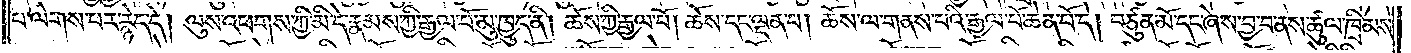པ་ལེགས་པར་རྙེད་དེ། ལུས་འཕགས་ཀྱི་མི་དེ་རྣམས་ཀྱི་རྒྱལ་པོ་མུ་ཁྱུད་ནི། ཆོས་ཀྱི་རྒྱལ་པོ། ཆོས་དང་ལྡན་པ། ཆོས་ལ་གནས་པའི་རྒྱལ་པོ་ཆེན་པོ་དེ། བཙུན་མོ་དང་ཞེས་བྱ་བ་ནས་ཚུལ་ཁྲིམས་
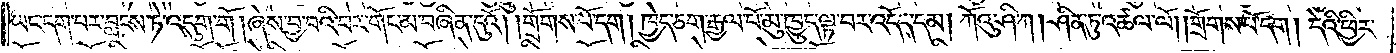ཡང་དག་པར་བླངས་ཏེ་འདུག་གོ །ཞེས་བྱ་བའི་བར་གོང་མ་བཞིན་དུའོ། །གྲོགས་པོ་དག །ཁྱེད་ཅག་རྒྱལ་པོ་མུ་ཁྱུད་ལྟ་བར་འདོད་དམ། ཀོའུ་ཤི་ཀ། ཤིན་ཏུ་འཚལ་ལོ། །གྲོགས་པོ་དག །དེའི་ཕྱིར་
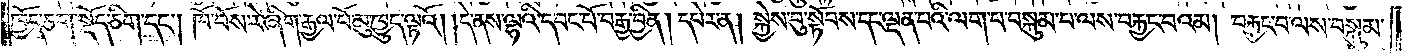ཁྱོད་ཅག་སྡོད་ཅིག་དང༌། ཁོ་བོས་རེ་ཞིག་རྒྱལ་པོ་མུ་ཁྱུད་ལྟའོ། །དེ་ནས་ལྷའི་དབང་པོ་བརྒྱ་བྱིན། དཔེར་ན། སྐྱེས་བུ་སྟོབས་དང་ལྡན་པའི་ལག་པ་བསྐུམ་པ་ལས་བརྐྱང་བའམ། བརྐྱང་བ་ལས་བསྐུམ་
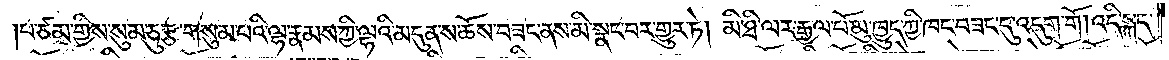།པ་ཙམ་གྱིས་སུམ་ཅུ་རྩ་གསུམ་པའི་ལྷ་རྣམས་ཀྱི་ལྷའི་མདུན་ས་ཆོས་བཟང་ནས་མི་སྣང་བར་གྱུར་ཏེ། མི་ཐི་ལར་རྒྱལ་པོ་མུ་ཁྱུད་ཀྱི་ཁང་བཟང་དུ་འདུག་གོ །འདི་སྐད་
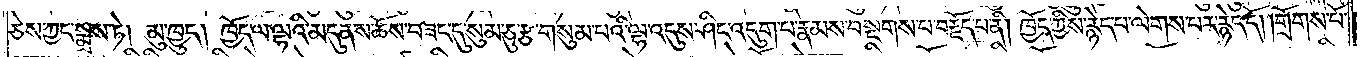ཅེས་ཀྱང་སྨྲས་ཏེ། མུ་ཁྱུད། ཁྱོད་ལ་ལྷའི་མདུན་ས་ཆོས་བཟང་དུ་སུམ་ཅུ་རྩ་གསུམ་པའི་ལྷ་འདུས་ཤིང་འདུག་པ་རྣམས་བསྔགས་པ་བརྗོད་པ་ནི། ཁྱོད་ཀྱིས་རྙེད་པ་ལེགས་པར་རྙེད་དོ། །གྲོགས་པོ་
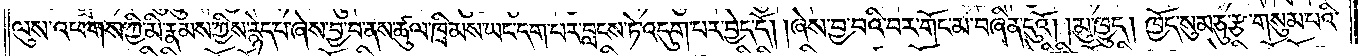ལུས་འཕགས་ཀྱི་མི་རྣམས་ཀྱིས་རྙེད་པ་ཞེས་བྱ་བ་ནས་ཚུལ་ཁྲིམས་ཡང་དག་པར་བླངས་ཏེ་འདུག་པར་བྱེད་དོ། །ཞེས་བྱ་བའི་བར་གོང་མ་བཞིན་དུའོ། །མུ་ཁྱུད། ཁྱོད་སུམ་ཅུ་རྩ་གསུམ་པའི་
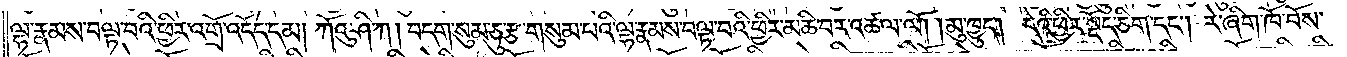ལྷ་རྣམས་བལྟ་བའི་ཕྱིར་འགྲོ་འདོད་དམ། ཀོའུ་ཤི་ཀ། བདག་སུམ་ཅུ་རྩ་གསུམ་པའི་ལྷ་རྣམས་བལྟ་བའི་ཕྱིར་མཆི་བར་འཚལ་ལོ། །མུ་ཁྱུད། དེའི་ཕྱིར་སྡོད་ཅིག་དང༌། རེ་ཞིག་ཁོ་བོས་
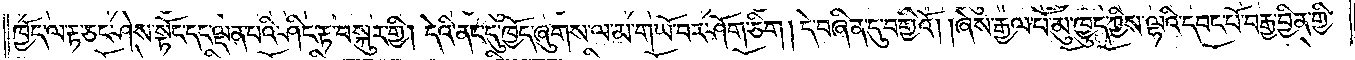ཁྱོད་ལ་རྟ་ཅང་ཤེས་སྟོང་དང་ལྡན་པའི་ཤིང་རྟ་བསྐུར་གྱི། དེའི་ནང་དུ་ཁྱོད་ཞུགས་ལ་མ་གཡོ་བར་ཤོག་ཅིག །དེ་བཞིན་དུ་བགྱིའོ། །ཞེས་རྒྱལ་པོ་མུ་ཁྱུད་ཀྱིས་ལྷའི་དབང་པོ་བརྒྱ་བྱིན་གྱི་
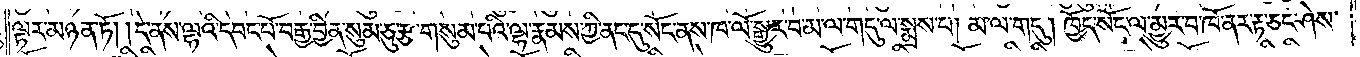ལྟར་མཉན་ཏོ། །དེ་ནས་ལྷའི་དབང་པོ་བརྒྱ་བྱིན་སུམ་ཅུ་རྩ་གསུམ་པའི་ལྷ་རྣམས་ཀྱི་ནང་དུ་སོང་ནས་ཁ་ལོ་སྒྱུར་བ་མ་ལ་གདུ་ལ་སྨྲས་པ། མ་ལ་གདུ། ཁྱོད་སོང་ལ་མྱུར་བ་ཁོ་ནར་རྟ་ཅང་ཤེས་
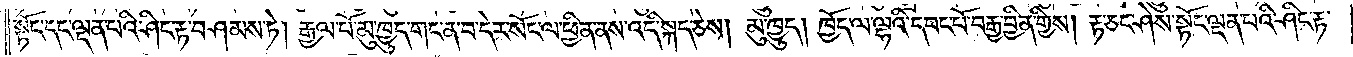སྟོང་དང་ལྡན་པའི་ཤིང་རྟ་བཤམས་ཏེ། རྒྱལ་པོ་མུ་ཁྱུད་གང་ན་བ་དེར་སོང་ལ་ཕྱིན་ནས་འདི་སྐད་ཅེས། མུ་ཁྱུད། ཁྱོད་ལ་ལྷའི་དབང་པོ་བརྒྱ་བྱིན་གྱིས། རྟ་ཅང་ཤེས་སྟོང་ལྡན་པའི་ཤིང་རྟ་
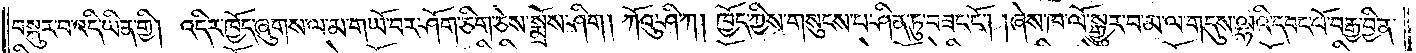བསྐུར་བ་འདི་ཡིན་གྱི། འདིར་ཁྱོད་ཞུགས་ལ་མ་གཡོ་བར་ཤོག་ཅིག་ཅེས་སྨྲོས་ཤིག །ཀོའུ་ཤི་ཀ། ཁྱོད་ཀྱིས་གསུངས་པ་ཤིན་ཏུ་བཟང་ངོ༌། །ཞེས་ཁ་ལོ་སྒྱུར་བ་མ་ལ་གདུས་ལྷའི་དབང་པོ་བརྒྱ་བྱིན་
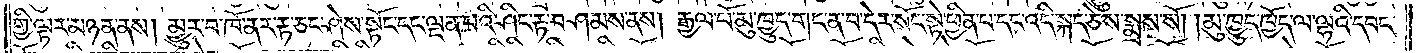གྱི་ལྟར་མཉན་ནས། མྱུར་བ་ཁོ་ནར་རྟ་ཅང་ཤེས་སྟོང་དང་ལྡན་པའི་ཤིང་རྟ་བཤམས་ནས། རྒྱལ་པོ་མུ་ཁྱུད་གང་ན་བ་དེར་སོང་སྟེ་ཕྱིན་པ་དང་འདི་སྐད་ཅེས་སྨྲས་སོ། །མུ་ཁྱུད་ཁྱོད་ལ་ལྷའི་དབང་
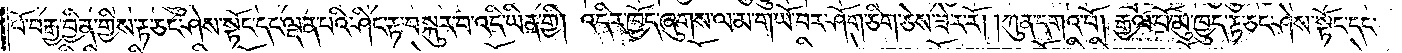པོ་བརྒྱ་བྱིན་གྱིས་རྟ་ཅང་ཤེས་སྟོང་དང་ལྡན་པའི་ཤིང་རྟ་བསྐུར་བ་འདི་ཡིན་གྱི། འདིར་ཁྱོད་ཞུགས་ལ་མ་གཡོ་བར་ཤོག་ཅིག་ཅེས་ཟེར་རོ། །ཀུན་དགའ་བོ། རྒྱལ་པོ་མུ་ཁྱུད་རྟ་ཅང་ཤེས་སྟོང་དང་
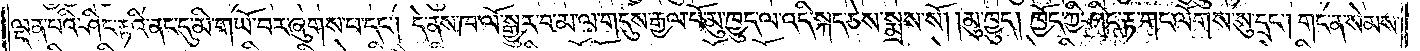ལྡན་པའི་ཤིང་རྟའི་ནང་དུ་མི་གཡོ་བར་ཞུགས་པ་དང༌། དེ་ནས་ཁ་ལོ་སྒྱུར་བ་མ་ལ་གདུས་རྒྱལ་པོ་མུ་ཁྱུད་ལ་འདི་སྐད་ཅེས་སྨྲས་སོ། །མུ་ཁྱུད། ཁྱོད་ཀྱི་ཤིང་རྟ་གང་ལོགས་སུ་དྲང༌། གང་ན་སེམས་
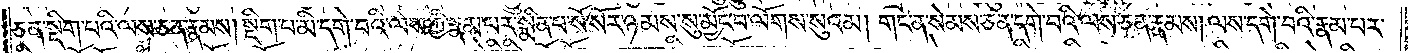ཅན་སྡིག་པའི་ལས་ཅན་རྣམས། སྡིག་པ་མི་དགེ་བའི་ལས་ཀྱི་རྣམ་པར་སྨིན་པ་སོ་སོར་ཉམས་སུ་མྱོང་བ་ལོགས་སུའམ། གང་ན་སེམས་ཅན་དགེ་བའི་ལས་ཅན་རྣམས། ལས་དགེ་བའི་རྣམ་པར་
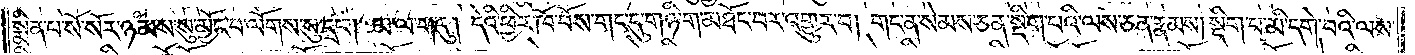སྨིན་པ་སོ་སོར་ཉམས་སུ་མྱོང་བ་ལོགས་སུ་དྲང༌། མ་ལ་གདུ། དེའི་ཕྱིར་ཁོ་བོས་གང་དུ་གཉི་ག་མཐོང་བར་འགྱུར་བ། གང་ན་སེམས་ཅན་སྡིག་པའི་ལས་ཅན་རྣམས། སྡིག་པ་མི་དགེ་བའི་ལས་
